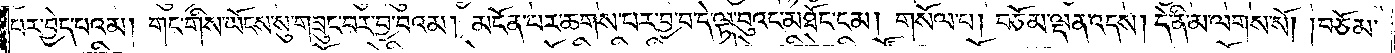པར་བྱེད་པའམ། གང་གིས་ཡོངས་སུ་གཟུང་བར་བྱ་པའམ། མངོན་པར་ཆགས་པར་བྱ་བ་དེ་ལྟ་བུའང་མཐོང་ངམ། གསོལ་པ། བཅོམ་ལྡན་འདས། དེ་ནི་མ་ལགས་སོ། །བཅོམ་
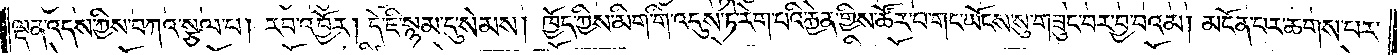ལྡན་འདས་ཀྱིས་བཀའ་སྩལ་པ། རབ་འབྱོར། དེ་ཇི་སྙམ་དུ་སེམས། ཁྱོད་ཀྱིས་མིག་གི་འདུས་ཏེ་རེག་པའི་རྐྱེན་གྱིས་ཚོར་བ་གང་ཡོངས་སུ་གཟུང་བར་བྱ་བའམ། མངོན་པར་ཆགས་པར་
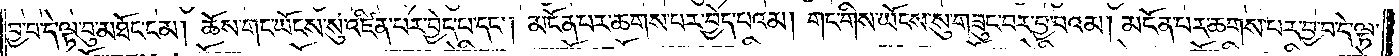བྱ་བ་དེ་ལྟ་བུ་མཐོང་ངམ། ཆོས་གང་ཡོངས་སུ་འཛིན་པར་བྱེད་པ་དང༌། མངོན་པར་ཆགས་པར་བྱེད་པའམ། གང་གིས་ཡོངས་སུ་གཟུང་བར་བྱ་བའམ། མངོན་པར་ཆགས་པར་བྱ་བ་དེ་ལྟ་
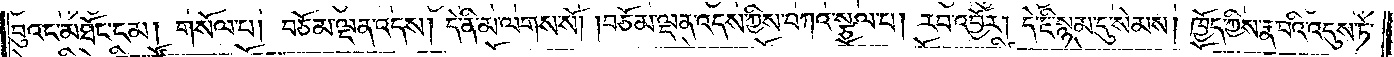བུའང་མཐོང་ངམ། གསོལ་པ། བཅོམ་ལྡན་འདས། དེ་ནི་མ་ལགས་སོ། །བཅོམ་ལྡན་འདས་ཀྱིས་བཀའ་སྩལ་པ། རབ་འབྱོར། དེ་ཇི་སྙམ་དུ་སེམས། ཁྱོད་ཀྱིས་རྣ་བའི་འདུས་ཏེ་
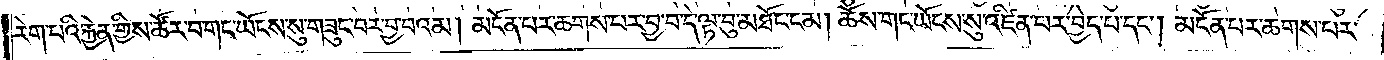རེག་པའི་རྐྱེན་གྱིས་ཚོར་བ་གང་ཡོངས་སུ་གཟུང་བར་བྱ་བའམ། མངོན་པར་ཆགས་པར་བྱ་བ་དེ་ལྟ་བུ་མཐོང་ངམ། ཆོས་གང་ཡོངས་སུ་འཛིན་པར་བྱེད་པ་དང༌། མངོན་པར་ཆགས་པར་
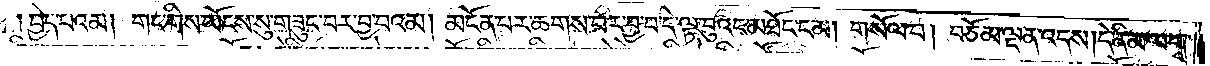བྱེད་པའམ། གང་གིས་ཡོངས་སུ་གཟུང་བར་བྱ་བའམ། མངོན་པར་ཆགས་པར་བྱ་བ་དེ་ལྟ་བུའང་མཐོང་ངམ། གསོལ་པ། བཅོམ་ལྡན་འདས། དེ་ནི་མ་ལགས་
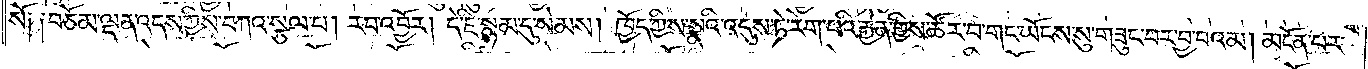སོ༑ ༑བཅོམ་ལྡན་འདས་ཀྱིས་བཀའ་སྩལ་པ། རབ་འབྱོར། དེ་ཇི་སྙམ་དུ་སེམས། ཁྱོད་ཀྱིས་སྣའི་འདུས་ཏེ་རེག་པའི་རྐྱེན་གྱིས་ཚོར་བ་གང་ཡོངས་སུ་གཟུང་བར་བྱ་བའམ། མངོན་པར་
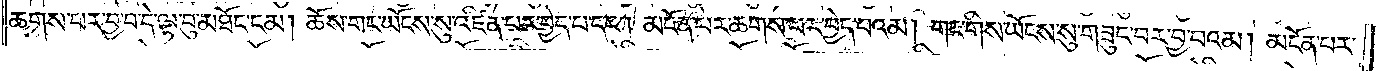ཆགས་པར་བྱ་བ་དེ་ལྟ་བུ་མཐོང་ངམ། ཆོས་གང་ཡོངས་སུ་འཛིན་པར་བྱེད་པ་དང༌། མངོན་པར་ཆགས་པར་བྱེད་པའམ། གང་གིས་ཡོངས་སུ་གཟུང་བར་བྱ་བའམ། མངོན་པར་
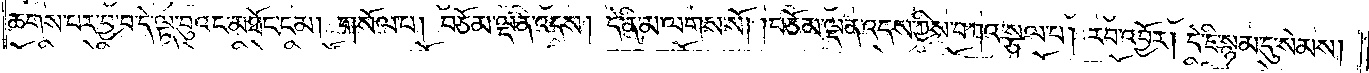ཆགས་པར་བྱ་བ་དེ་ལྟ་བུའང་མཐོང་ངམ། གསོལ་པ། བཅོམ་ལྡན་འདས། དེ་ནི་མ་ལགས་སོ། །བཅོམ་ལྡན་འདས་ཀྱིས་བཀའ་སྩལ་པ། རབ་འབྱོར། དེ་ཇི་སྙམ་དུ་སེམས།
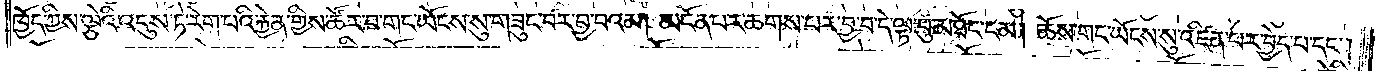ཁྱོད་ཀྱིས་ལྕེའི་འདུས་ཏེ་རེག་པའི་རྐྱེན་གྱིས་ཚོར་བ་གང་ཡོངས་སུ་གཟུང་བར་བྱ་བའམ། མངོན་པར་ཆགས་པར་བྱ་བ་དེ་ལྟ་བུ་མཐོང་ངམ། ཆོས་གང་ཡོངས་སུ་འཛིན་པར་བྱེད་པ་དང༌།
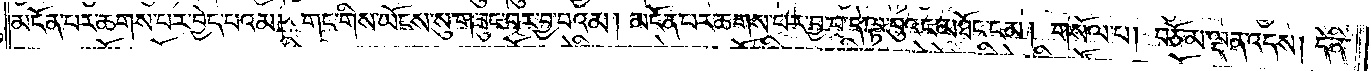མངོན་པར་ཆགས་པར་བྱེད་པའམ། གང་གིས་ཡོངས་སུ་གཟུང་བར་བྱ་བའམ། མངོན་པར་ཆགས་པར་བྱ་བ་དེ་ལྟ་བུའང་མཐོང་ངམ། གསོལ་པ། བཅོམ་ལྡན་འདས། དེ་ནི་
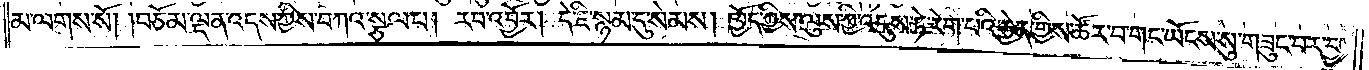མ་ལགས་སོ། །བཅོམ་ལྡན་འདས་ཀྱིས་བཀའ་སྩལ་པ། རབ་འབྱོར། དེ་ཇི་སྙམ་དུ་སེམས། ཁྱོད་ཀྱིས་ལུས་ཀྱི་འདུས་ཏེ་རེག་པའི་རྐྱེན་གྱིས་ཚོར་བ་གང་ཡོངས་སུ་གཟུང་བར་བྱ་
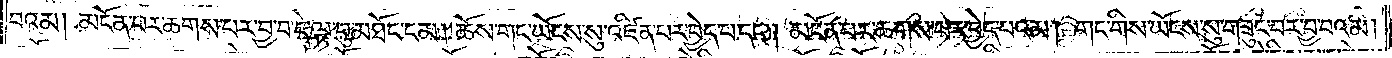བའམ། མངོན་པར་ཆགས་པར་བྱ་བ་དེ་ལྟ་བུ་མཐོང་ངམ། ཆོས་གང་ཡོངས་སུ་འཛིན་པར་བྱེད་པ་དང༌། མངོན་པར་ཆགས་པར་བྱེད་པའམ། གང་གིས་ཡོངས་སུ་གཟུང་བར་བྱ་བའམ།
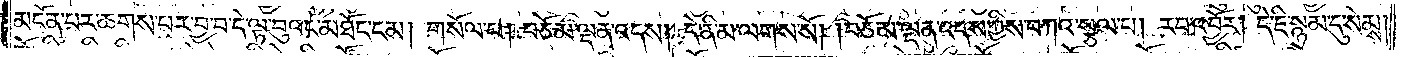མངོན་པར་ཆགས་པར་བྱ་བ་དེ་ལྟ་བུའང་མཐོང་ངམ། གསོལ་པ། བཅོམ་ལྡན་འདས། དེ་ནི་མ་ལགས་སོ། །བཅོམ་ལྡན་འདས་ཀྱིས་བཀའ་སྩལ་པ། རབ་འབྱོར། དེ་ཇི་སྙམ་དུ་སེམས།
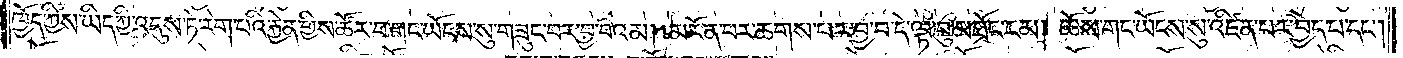ཁྱོད་ཀྱིས་ཡིད་ཀྱི་འདུས་ཏེ་རེག་པའི་རྐྱེན་གྱིས་ཚོར་བ་གང་ཡོངས་སུ་གཟུང་བར་བྱ་བའམ། མངོན་པར་ཆགས་པར་བྱ་བ་དེ་ལྟ་བུ་མཐོང་ངམ། ཆོས་གང་ཡོངས་སུ་འཛིན་པར་བྱེད་པ་དང༌།
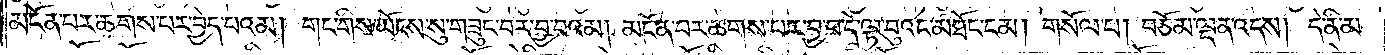མངོན་པར་ཆགས་པར་བྱེད་པའམ། གང་གིས་ཡོངས་སུ་གཟུང་བར་བྱ་བའམ། མངོན་པར་ཆགས་པར་བྱ་བ་དེ་ལྟ་བུའང་མཐོང་ངམ། གསོལ་པ། བཅོམ་ལྡན་འདས། དེ་ནི་མ་
